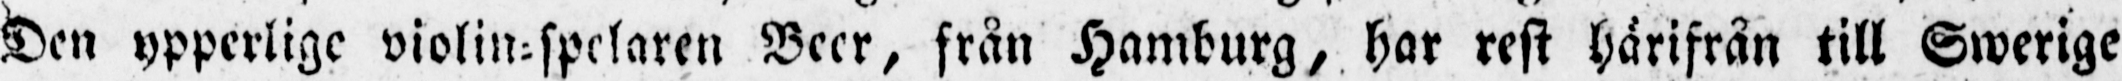Den ypperlige violin-spelaren Beer, från Hamburg, har rest härifrån till Swerige
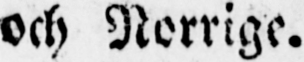och Norrige.
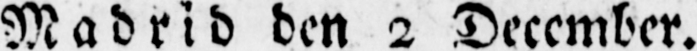Madrid den 2 December.
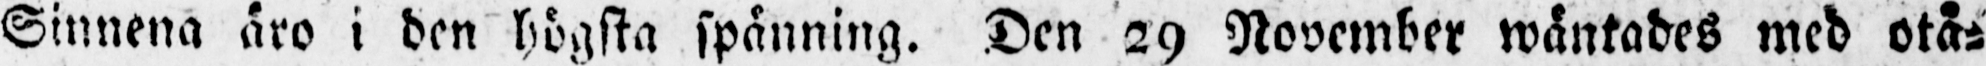Sinnena äro i den högsta spänning. Den 29 November wäntades med otå-
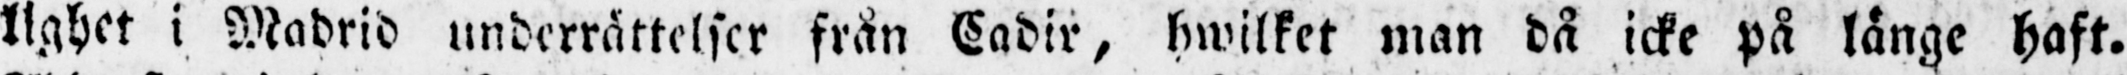lighet i Madrid underrättelser från Cadir, hwilket man då icke på länge haft.
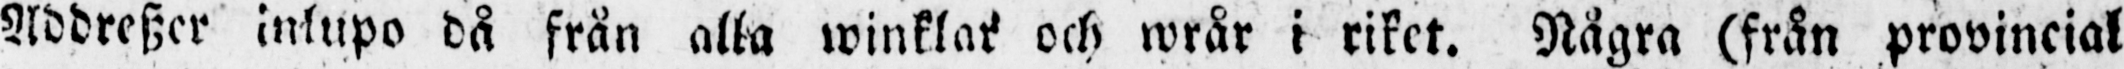Addreszer inlupo då från alla winklar och wrår i riket. Några (från provincial
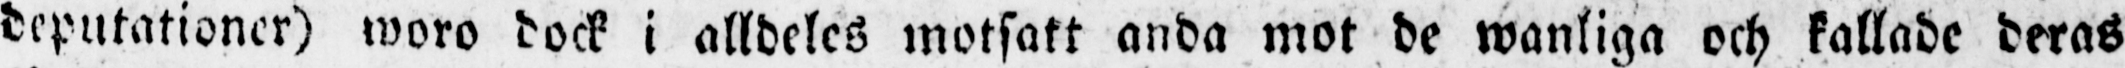deputationer) woro dock i alldeles motsatt anda mot de wanliga och kallade deras
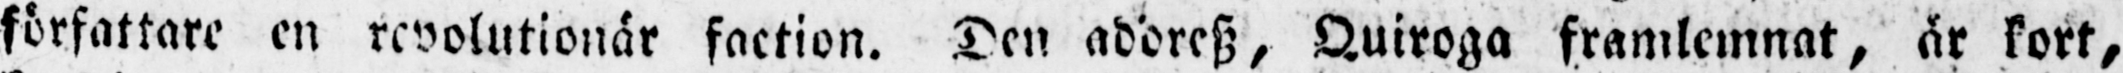författare en revolutionär faction. Den addresz, Quiroga framlemnat, är kort,
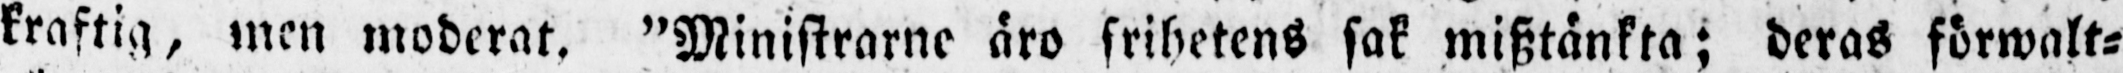kraftig, men moderat. "Ministrarne äro frihetens sak misztänkta; deras förwalt-
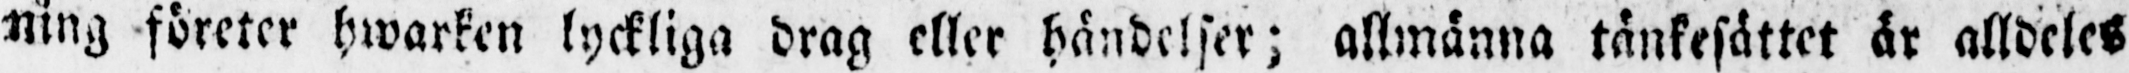ning företer hwarken lyckliga drag eller händelser; allmänna tänkesättet är alldeles
